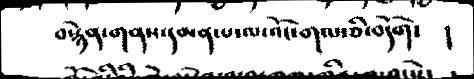བསྙེན་གནས་དམན་པ་ལ་འོང་གལ་ཅི་བདོག་  །
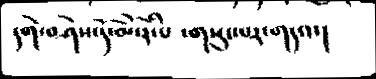དགེ་བཤེས་དོ་མོ་རེ་པི  ་གསུང་པར་གདའ་།
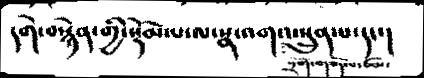དགེ་བསྙེན་གྱི་སྡོམ་པ་ལ་སྣ་འགའ་སྲུན་པ་དང་།
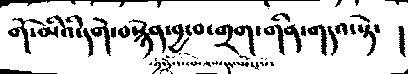གོ་མིའི་དགེ་བསྙེན་བྱ་བ་གྲག་གིན་གདའ་སྟེ་   །
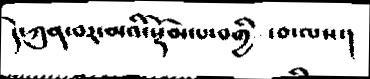དེ་ཀུན་བར་མའི་སྡོམ་པ་བགྱི  ་བ་ལས་།
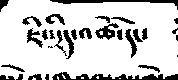ཇི་སྲིད་འཚོ་དང་
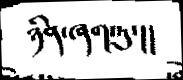ཉིན་ཞག་ཏུ་།།
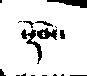སྡོམ་
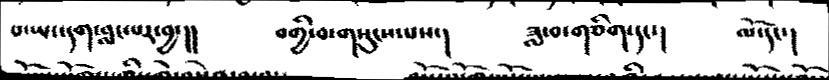པ་ཡང་དག་བླང་པར་བྱ་།།  བགྱི་བ་གསུངས་པས་།  ཟླ་བ་གཅིག་དང་།  ལོ་དང་།
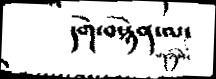དགེ་བསྙེན་ལ་གཉིས་
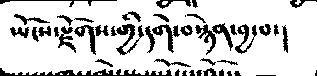ཡོངས་རྫོགས་གྱི་དགེ་བསྙེན་བྱ་བ་།
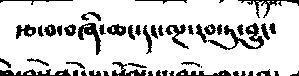རྩ་བ་བཞི་ཆང་དང་ལྔ་རབ་ཏུ་བྱུང་
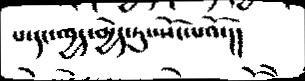པ་དང་ཁྱང་མྱེད་ཏུ་སྤོང་པའོ་།།
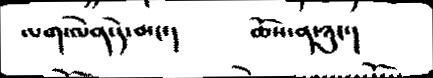ལག་ལེན་དེ་མང་།  ཆོས་ན་ཉུང་།
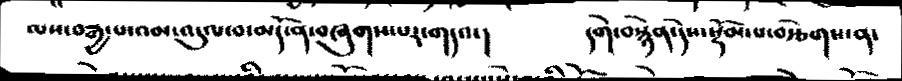ལས་བརྒྱ་པ་འམ་འདུལ་བ་མདོ་ན་བཞུགས་པར་གདའ་།  དགེ་བསྙེན་དེས་སྡོམ་པ་བརྩེགས་ན་
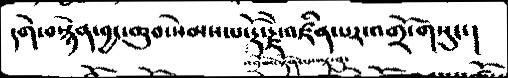དགེ་བསྙེན་བྱང་ཆུབ་སེམས་པ་རྡོ་རྗེ་འཛིན་པར་འགྲོ་གསུང་།
